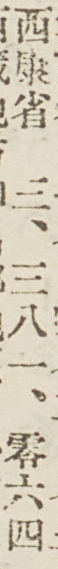西康省 三、三八一、零六四
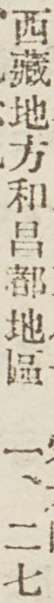西藏地方和昌都地區 一、二七
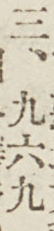三、九六九
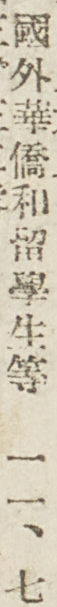國外華僑和留學生等 一一、七
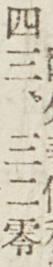四三、三二零
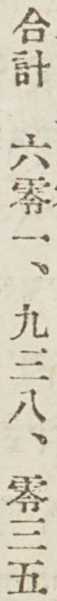合計 六零一、九三八、零三五
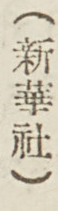（新華社）
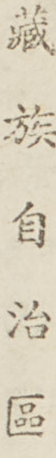藏族自治區
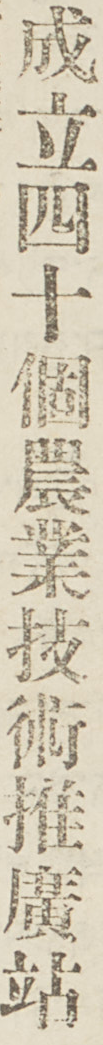成立四十個農業技術推廣站
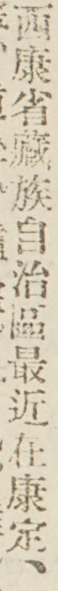西康省藏族自治區最近在康定、
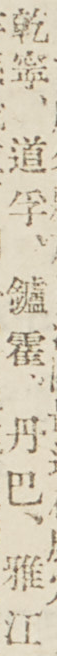乾寧、道孚、爐霍、丹巴、雅江
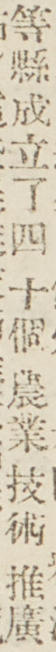等縣成立了四十個農業技術推廣
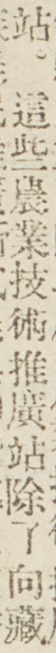站。這些農業技術推廣站除了向藏
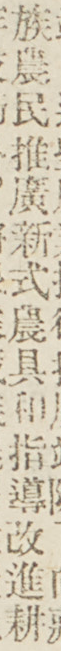族農民推廣新式農具和指導改進耕
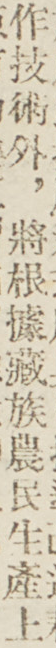作技術外，將根據藏族農民生產上
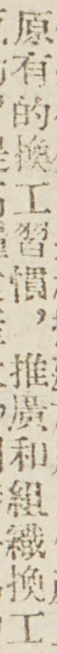原有的換工習慣，推廣和組織換工
